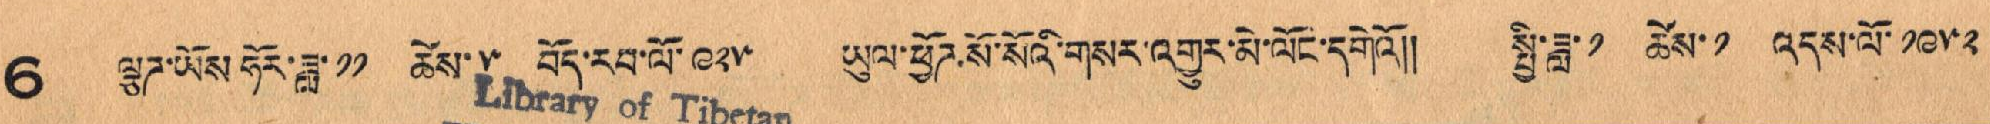6 ལྕཊ་ཡོས་ཧོར་ཟླ་ ༡༡ ཚེས་ ༥ བོད་རབ་ལོ་ ༩༢༥ ཡུལ་ཕྱོཊ་སོ་སོའི་གསར་འགྱུར་མེ་ལོང་དགེའོ།། སྤྱི་ཟླ་ ༡ ཚེས་ ༡ འདས་ལོ་ ༡༩༥༢
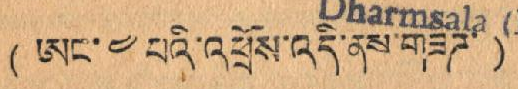(ཨང་ ༤ པའི་འཕྲོས་འདི་ནས་གཟིཊ་)
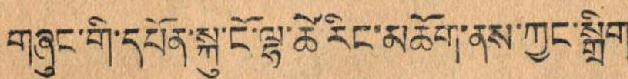གཞུང་གི་དཔོན་སྐུ་ངོ་ལྷ་ཚེ་རིང་མཆོག་ནས་ཀྱང་སྒྲིག་
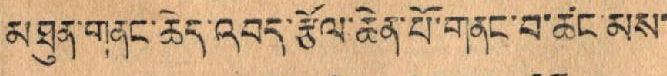མཐུན་གནང་ཆེ་འབད་རྩོན་ཆེན་པོ་གནང་བ་ཚང་མས་
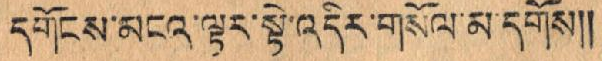དགོངས་མངའ་ལྟར་སྟེ་འདིར་གསོལ་མ་དགོས།།
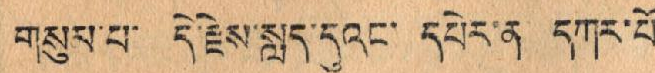གསུམ་པ་ དེ་རྗེས་སླད་དུའང་ དཔེར་ན་ དཀར་པོ་
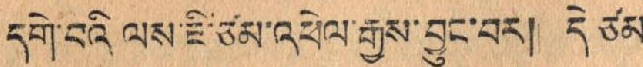དགེ་བའི་ལས་ཇི་ཙམ་འཕེལ་རྒྱས་བྱུང་བར། དེ ཙམ་
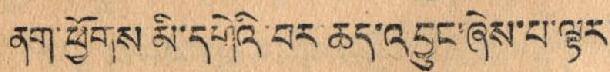ནག་ཕྱོགས་མི་དགེའི་བར་ཆད་འབྱུང་ཞེས་པ་ལྟར་
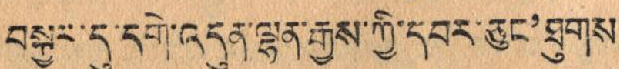བསྐྱར་དུ་དགེ་འདུན་ལྷན་རྒྱས་ཀྱི་དབར་ཅུང'ཐུགས་
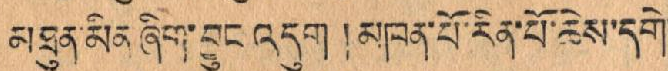མཐུན་མིན ཞེས་བྱུང འདུག །མཁན་པོ་རེན་པོ་ཆེས་དགེ་
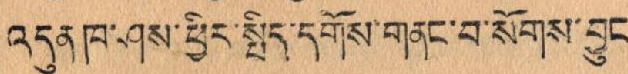འདུན་ཁ་ཤས་ཕྱིར་སྤིད་དགོས་གནང་བ་སོགས་བྱུང་
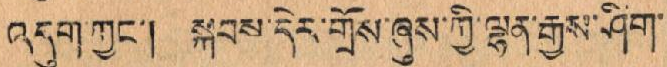འདུག་ཀྱང་། སྐབས་དེར་གྲོས་ཞུས་ཀྱི་ལྷན་རྒྱས་ཤིག་
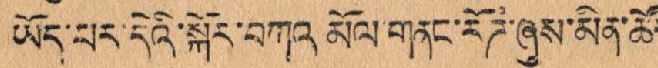ཡོད་པར་དེའི་སྐོར་བཀའ མོལ་གནང་རོཊ་ཞུས་མིན་ཚོད་
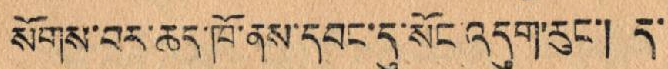སོགས་བར་ཆད་ཁོ་ནས་དབང་དུ་སོང་འདུག་རུང་། ད་
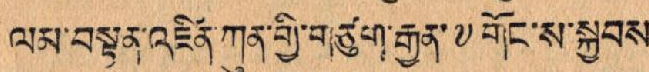ལམ་བསྟན་འཛིན་ཀུན་གྱི་གཙུག་རྒྱན་༸གོང་ས་སྐྱབས་
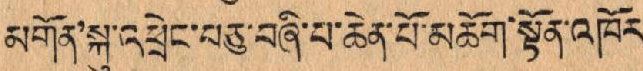མགོན་སྐུ་འཕྲེང་བཅུ་བཞི་པ་ཆེན་པོ་མཆོག་སྟོན་འཁོར་
